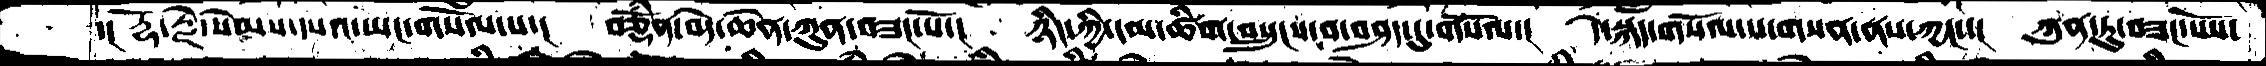་། རྡོ་རྗེ་སེམས་དཔའ་ཡང་གསོལ་པ་།  བཅྡོཾན་བདེ་ཆེན་ཀུན་བཟང་པོ་།  ཉིད་ཀྱི་དམ་ཚིག་བསྲུངས་བ་བཤད་དུ་གསོལ་།  དེ་སྐད་གསོལ་པ་གསན་ནས་ཀྱང་་།  ཀུན་ཏུ་བཟང་པོས་
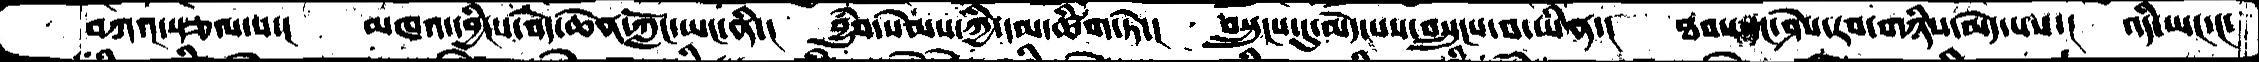བཀའ་སྩལ་པ་།  མཁའ་དབྱིངས་བདེ་ཆེན་ཀློང་ཡང་ནི་།   བྱུཾབ་སེམས་ཀྱི་དམ་ཚིག་ཏེ་།  བསྲུངས་དུ་མེད་པས་བསྲུངས་བ་ཡིན་།  ཐབས་དང་ཤེེས་རབ་གཉིས་མེད་པས་།  འདི་ཡང་ང་
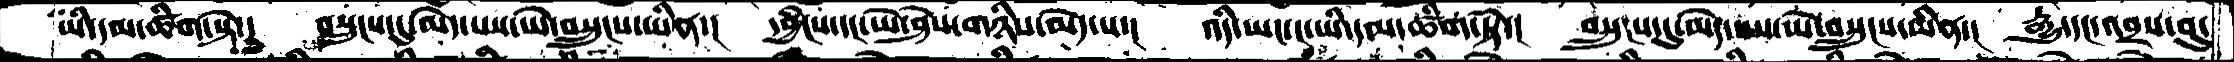ཡི་དམ་ཚིག་སྟེ་།  བསྲུངས་དུ་མེད་པས་ཡེ་བསྲུངས་ཡིན་།  དབྱིངས་དང་ཡེ་ཤེས་གཉིས་མེད་པ་།  འདི་ཡང་ང་ཡི་དམ་ཚིག་སྟེ་།  བསྲུངས་དུ་མེད་པས་ཡེ་བསྲུངས་མིན་།  རྒྱུ་དང་འབྲས་བུ་
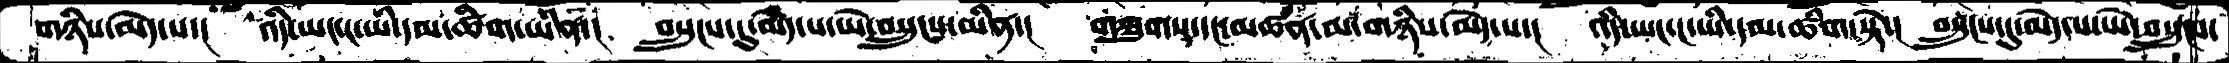གཉིས་མེད་པ་།  འདི་ཡང་ང་ཡི་དམ་ཚིག་ཡིན་།  བསྲུངས་དུ་མེད་པ་ཡེ་བསྲུངས་མིན་།  གཟུགས་དང་མཚན་མ་གཉིས་མེད་པ་།  འདི་ཡང་ང་ཡི་དམ་ཚིག་སྟེ་།  བསྲུངས་དུ་མེད་པ་ཡེ་བསྲུངས་
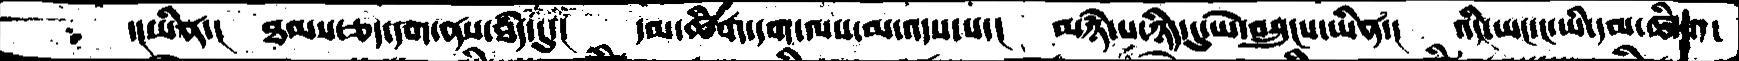་།ཡིན་།  ཐམས་ཅད་དག་ནས་ཐཾད་དུ་།  དམ་ཚིག་དག་ལས་མ་འདས་པ་།  མཉཾ་པ་ཉིད་དུ་ཡེ་བསྲུངས་ཡིན་།  འདི་ཡང་ང་ཡི་དམ་ཚིག་
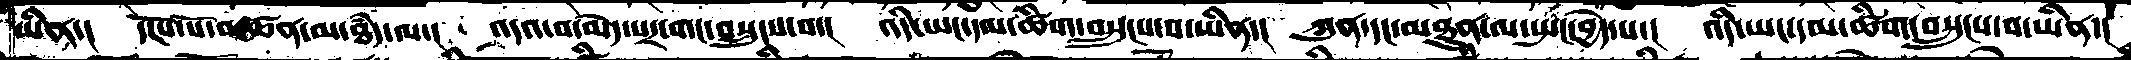ཡིན་།  དངོས་པོ་མཚན་མ་ཐཾད་ལ་།  འདའ་བ་མེད་པར་གང་བསྲུངས་བ་།  འདི་ཡང་དམ་ཚིག་བསྲུངས་བ་ཡིན་།  ཀུན་དང་མཐུན་ལ་སྤང་བྱེད་པ་།  འདི་ཡང་དམ་ཚིག་བསྲུངས་བ་ཡིན་།
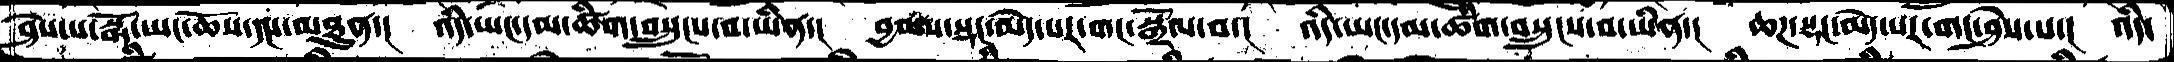ཤེས་པ་སྒོ་ཡང་ཆོས་དང་མཐུན་།  འདི་ཡང་དམ་ཚིག་བསྲུངས་བ་ཡིན་།  བྱམས་སྡང་མེད་པར་གང་སྒྲོལ་བ་།  འདི་ཡང་དམ་ཚིག་བསྲུངས་བ་ཡིན་།  ཆཌ་སྡང་མེད་པར་གང་ཤེས་པ་།  འདི་
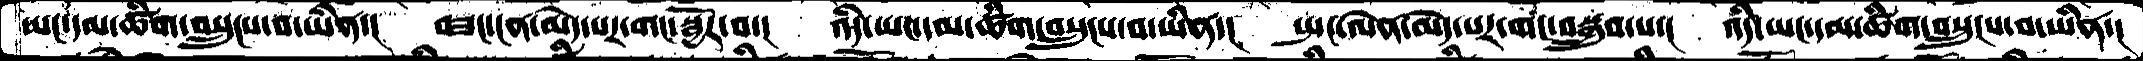ཡང་དམ་ཚིག་བསྲུངས་བ་ཡིན་།  བཟང་ངན་མེད་པར་གང་སྦྱོར་བ་།  འདི་ཡང་དམ་ཚིག་བསྲུངས་བ་ཡིན་།  སྤང་ལེན་མེད་པར་གང་བསྒྲུབ་པ་།  འདི་ཡང་དམ་ཚིག་བསྲུངས་བ་ཡིན་།
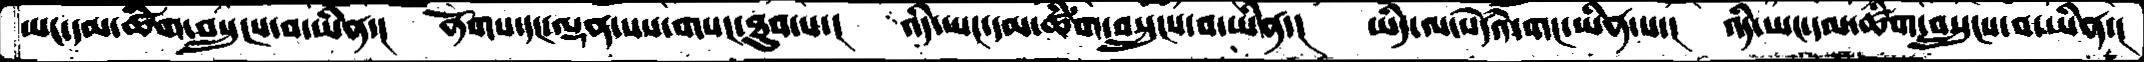ཡང་དམ་ཚིག་བསྲུངས་བ་ཡིན་།  ནོགས་དང་ལྡན་པས་གསང་ཐུབ་པ་།  འདི་ཡང་དམ་ཚིག་བསྲུངས་བ་ཡིན་།  ཡིད་ལ་སེདཾའ་གང་ཡིན་པ་།  འདི་ཡང་དམ་ཚིག་བསྲུངས་བ་ཡིན་།
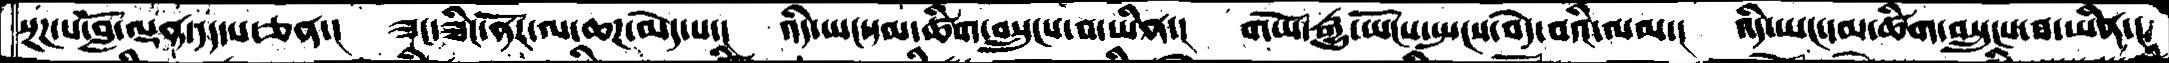སྔཌ་པ་བློ་ལྡན་དད་པ་ཅན་།  ཟང་ཟིང་ནོར་ལ་ཆཌ་མེད་པ་།   འདི་ཡང་དམ་ཚིག་བསྲུངས་བ་ཡིན་།  གཡོ་རྒྱུ་ཡོངས་སྤངས་བདེ་བའི་ལམ་།  འདི་ཡང་དམ་ཚིག་བསྲུངས་བ་ཡིན་།
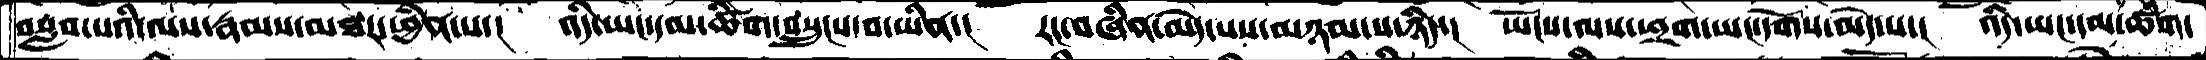བསླབ་པའི་ལས་རྣམས་མཐར་ཕྱིན་པ་།  འདི་ཡང་དམ་ཚིག་བསྲུངས་བ་ཡིན་།  རང་བཞིན་མེད་པས་མཉམ་པ་ཉིད་།  ཡོངས་ལས་ཕྲག་ཡང་དགོས་མེད་པ་།  འདི་ཡང་དམ་ཚིག་
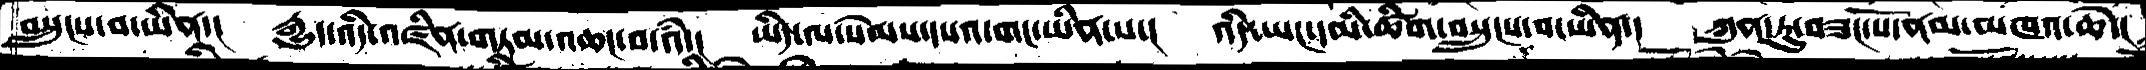བསྲུངས་བ་ཡིན་།  རྒྱུད་འདི་འཛིན་གཏམ་འཆང་བ་འཾ་།  ཡིད་ལ་སེམས་དཔའ་གང་ཡིན་པ་།  འདི་ཡང་དམི་ཚིག་བསྲུངས་བ་ཡིན་།  ཀུན་ཏུ་བཟང་པོ་ནམ་མཁའ་ཆེ་།
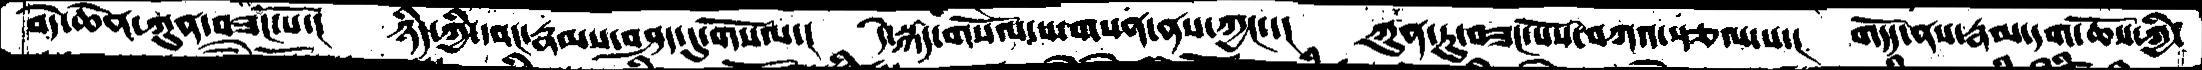བདེ་ཆེན་ཀུན་བཟང་པོ་།  ཉིད་ཀྱི་དབང་རྣམས་བཤད་དུ་གསོལ་།  དེ་སྐད་གསོལ་པ་གསན་ནས་ཀྱང་་།  ཀུན་ཏུ་བཟང་པོས་བཀའ་སྩལ་པ་།  གདོད་ནས་རྣམ་དག་ཆོས་ཀྱི་
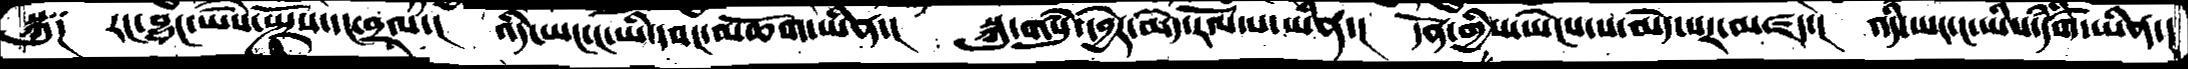སྐུ་༑  རང་བྱུང་ཡཻས་སྤྲོས་དང་བྲལ་།  འདི་ཡང་ང་ཡི་དབང་མཆོག་ཡིན་།  སྐུ་གསུཾ་དབྱེར་མེད་རོལ་པ་ཡིན་།  དོན་གྱིས་ཡེངས་པ་མེད་པར་མཛད།   འདི་ཡང་ང་ཡི་དཾཚིག་ཡིན་།
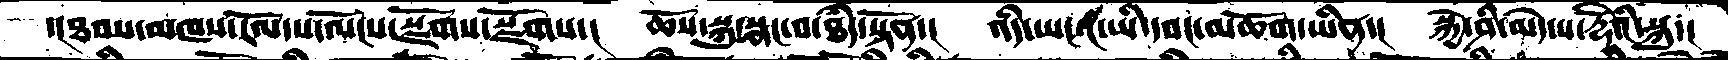་།ཐབས་མཁས་རོལ་པ་ལོངས་སྫོགས་སྫོགས་།  ཆོས་སྐུ་སྣང་བ་ཐཾད་སྟོན་།  འདི་ཡང་ང་ཡི་དབང་མཆོག་ཡིན་།  སྐྱེ་ཤི་མེད་པ་རྡོེའི་སྐུ་།
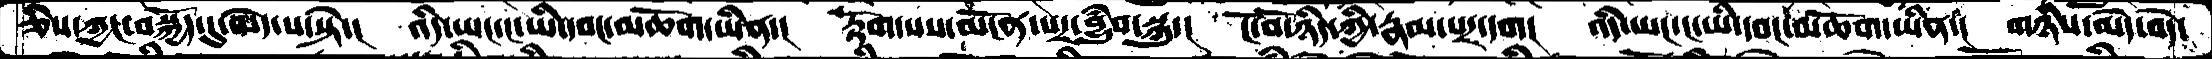ཅེས་ཀྱང་བསྐྱོད་དུ་མེད་པ་སྟེ་།  འདི་ཡང་ང་ཡི་དབང་མཆོག་ཡིན་།  རྟོག་པས་མངོན་པར་བྱུཾབ་སྐུ་།  ངོ་བོ་ཉིད་ཀྱི་རྣམ་པར་དག།  འདི་ཡང་ང་ཡི་དབང་མཆོག་ཡིན་།  གཉིས་མེད་བདེ་
